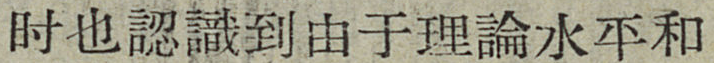时也認識到由于理論水平和
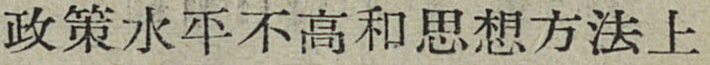政策水平不高和思想方法上
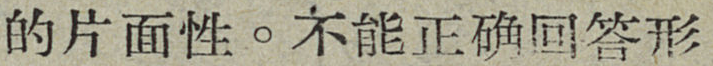的片面性。不能正确回答形
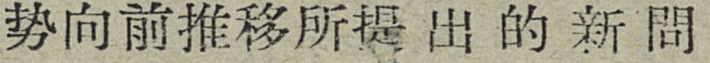势向前推移所提出的新問
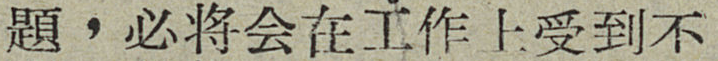題，必将会在工作上受到不
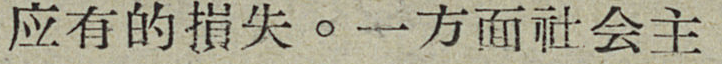应有的損失。一方面社会主
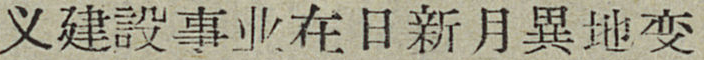义建設事业在日新月異地变
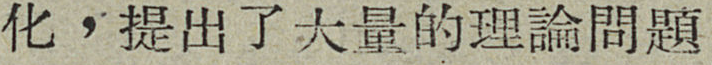化，提出了大量的理論問題
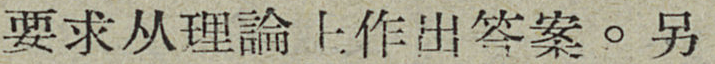要求从理論上作出答案。另
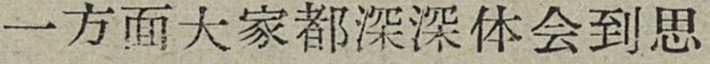一方面大家都深深体会到思
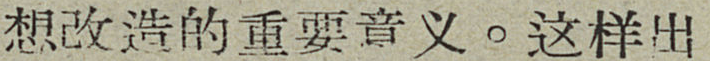想改造的重要意义。这样出
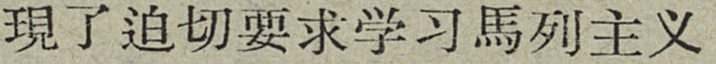現了迫切要求学习馬列主义
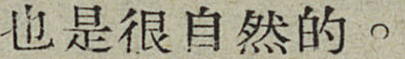也是很自然的。
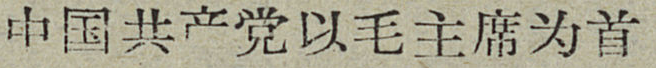中国共产党以毛主席为首
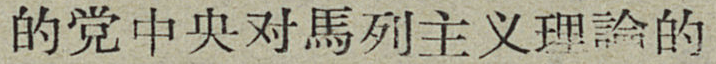的党中央对馬列主义理論的
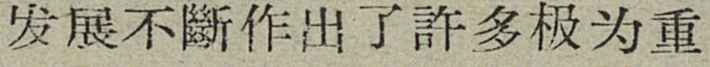发展不斷作出了許多极为重
